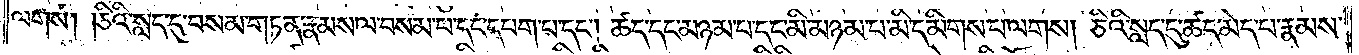ལགས། ཅིའི་སླད་དུ་བསམ་གཏན་རྣམས་ལ་བསམ་པ་དང་དཔག་པ་དང༌། ཚད་དང་མཉམ་པ་དང་མི་མཉམ་པ་མི་དམིགས་པ་ལགས། ཅིའི་སླད་དུ་ཚད་མེད་པ་རྣམས་
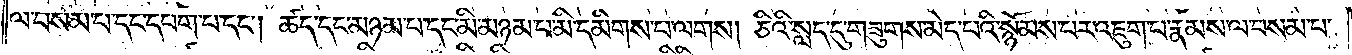ལ་བསམ་པ་དང་དཔག་པ་དང༌། ཚད་དང་མཉམ་པ་དང་མི་མཉམ་པ་མི་དམིགས་པ་ལགས། ཅིའི་སླད་དུ་གཟུགས་མེད་པའི་སྙོམས་པར་འཇུག་པ་རྣམས་ལ་བསམ་པ་
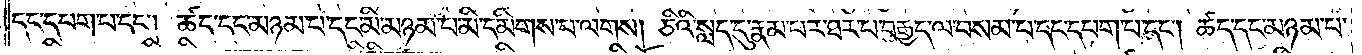དང་དཔག་པ་དང༌། ཚད་དང་མཉམ་པ་དང་མི་མཉམ་པ་མི་དམིགས་པ་ལགས། ཅིའི་སླད་དུ་རྣམ་པར་ཐར་པ་བརྒྱད་པ་ལ་བསམ་པ་དང་དཔག་པ་དང༌། ཚད་དང་མཉམ་པ་
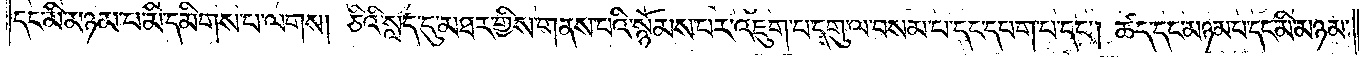དང་མི་མཉམ་པ་མི་དམིགས་པ་ལགས། ཅིའི་སླད་དུ་མཐར་གྱིས་གནས་པའི་སྙོམས་པར་འཇུག་པ་དགུ་ལ་བསམ་པ་དང་དཔག་པ་དང༌། ཚད་དང་མཉམ་པ་དང་མི་མཉམ་
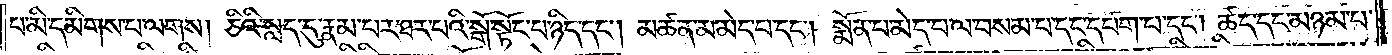པ་མི་དམིགས་པ་ལགས། ཅིའི་སླད་དུ་རྣམ་པར་ཐར་པའི་སྒོ་སྟོང་པ་ཉིད་དང༌། མཚན་མ་མེད་པ་དང༌། སྨོན་པ་མེད་པ་ལ་བསམ་པ་དང་དཔག་པ་དང༌། ཚད་དང་མཉམ་པ་
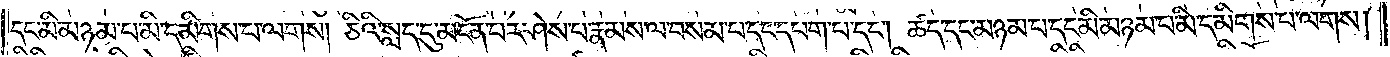དང་མི་མཉམ་པ་མི་དམིགས་པ་ལགས། ཅིའི་སླད་དུ་མངོན་པར་ཤེས་པ་རྣམས་ལ་བསམ་པ་དང་དཔག་པ་དང༌། ཚད་དང་མཉམ་པ་དང་མི་མཉམ་པ་མི་དམིགས་པ་ལགས།
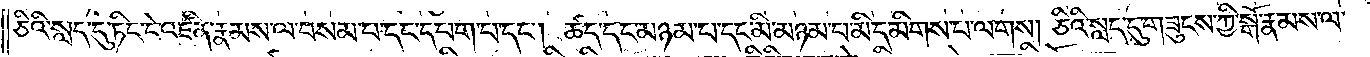ཅིའི་སླད་དུ་ཏིང་ངེ་འཛིན་རྣམས་ལ་བསམ་པ་དང་དཔག་པ་དང༌། ཚད་དང་མཉམ་པ་དང་མི་མཉམ་པ་མི་དམིགས་པ་ལགས། ཅིའི་སླད་དུ་གཟུངས་ཀྱི་སྒོ་རྣམས་ལ་
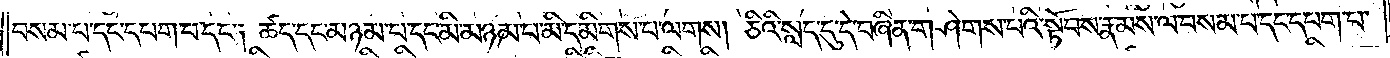བསམ་པ་དང་དཔག་པ་དང༌། ཚད་དང་མཉམ་པ་དང་མི་མཉམ་པ་མི་དམིགས་པ་ལགས། ཅིའི་སླད་དུ་དེ་བཞིན་གཤེགས་པའི་སྟོབས་རྣམས་ལ་བསམ་པ་དང་དཔག་པ་
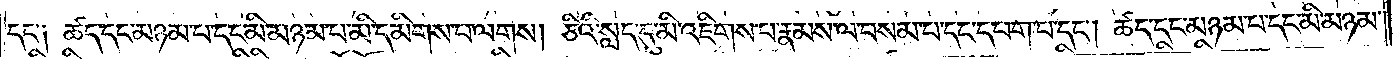དང༌། ཚད་དང་མཉམ་པ་དང་མི་མཉམ་པ་མི་དམིགས་པ་ལགས། ཅིའི་སླད་དུ་མི་འཇིགས་པ་རྣམས་ལ་བསམ་པ་དང་དཔག་པ་དང༌། ཚད་དང་མཉམ་པ་དང་མི་མཉམ་
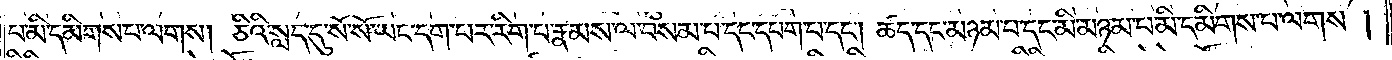པ་མི་དམིགས་པ་ལགས། ཅིའི་སླད་དུ་སོ་སོ་ཡང་དག་པར་རིག་པ་རྣམས་ལ་བསམ་པ་དང་དཔག་པ་དང༌། ཚད་དང་མཉམ་པ་དང་མི་མཉམ་པ་མི་དམིགས་པ་ལགས།
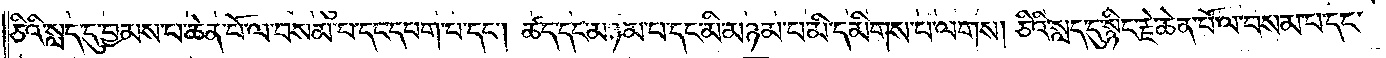ཅིའི་སླད་དུ་བྱམས་པ་ཆེན་པོ་ལ་བསམ་པ་དང་དཔག་པ་དང༌། ཚད་དང་མཉམ་པ་དང་མི་མཉམ་པ་མི་དམིགས་པ་ལགས། ཅིའི་སླད་དུ་སྙིང་རྗེ་ཆེན་པོ་ལ་བསམ་པ་དང་
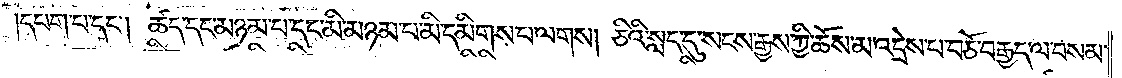དཔག་པ་དང༌། ཚད་དང་མཉམ་པ་དང་མི་མཉམ་པ་མི་དམིགས་བ་ལགས། ཅིའི་སླད་དུ་སངས་རྒྱས་ཀྱི་ཆོས་མ་འདྲེས་པ་བཅོ་བརྒྱད་ལ་བསམ་
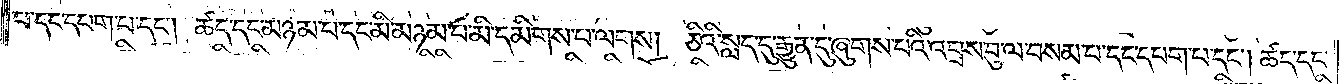པ་དང་དཔག་པ་དང༌། ཚད་དང་མཉམ་པ་དང་མི་མཉམ་པ་མི་དམིགས་པ་ལགས། ཅིའི་སླད་དུ་རྒྱུན་དུ་ཞུགས་པའི་འབྲས་བུ་ལ་བསམ་པ་དང་དཔག་པ་དང༌། ཚད་དང་
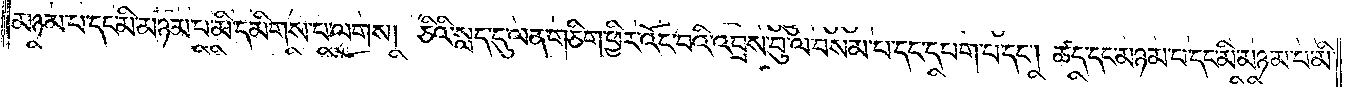མཉམ་པ་དང་མི་མཉམ་པ་མི་དམིགས་པ་ལགས། ཅིའི་སླད་དུ་ལན་གཅིག་ཕྱིར་འོང་བའི་འབྲས་བུ་ལ་བསམ་པ་དང་དཔག་པ་དང༌། ཚད་དང་མཉམ་པ་དང་མི་མཉམ་པ་མི་
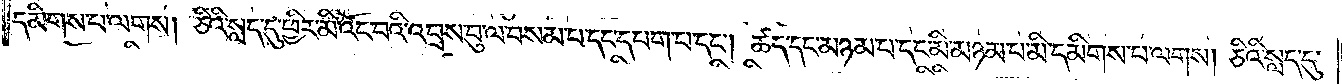དམིགས་པ་ལགས། ཅིའི་སླད་དུ་ཕྱིར་མི་འོང་བའི་འབྲས་བུ་ལ་བསམ་པ་དང་དཔག་པ་དང༌། ཚད་དང་མཉམ་པ་དང་མི་མཉམ་པ་མི་དམིགས་པ་ལགས། ཅིའི་སླད་དུ་
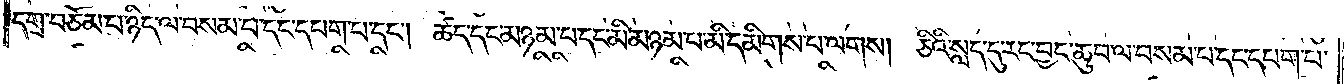དགྲ་བཅོམ་པ་ཉིད་ལ་བསམ་པ་དང་དཔག་པ་དང༌། ཚད་དང་མཉམ་པ་དང་མི་མཉམ་པ་མི་དམིགས་པ་ལགས། ཅིའི་སླད་དུ་རང་བྱང་ཆུབ་ལ་བསམ་པ་དང་དཔག་པ་
